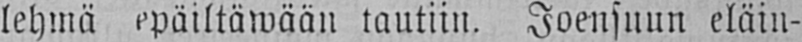lehmä epäiltäwään tautiin. Joensuun eläin-
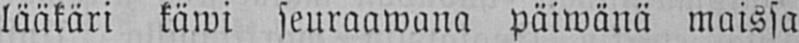lääkäri käwi seuraawana päiwänä maissa
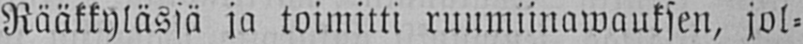Rääkkylässä ja toimitti ruumiinawauksen, jol-
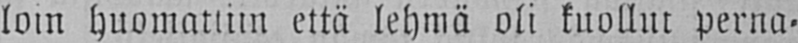loin huomattiin että lehmä oli kuollut perna-
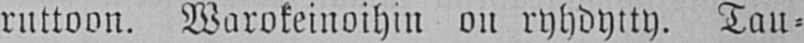ruttoon. Warokeinoihin on ryhdytty. Tau-
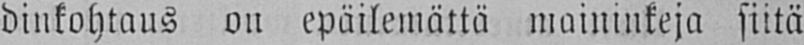dinkohtaus on epäilemättä maininkeja siitä
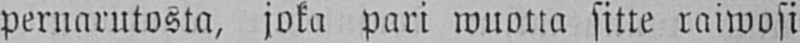pernarutosta, joka pari wuotta sitte raiwosi
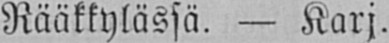Rääkkylässä. — Karj.
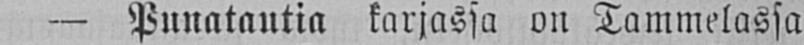— Punatautia karjassa on Tammelassa
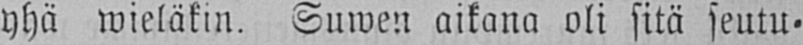yhä wieläkin. Suwen aikana oli sitä seutu-
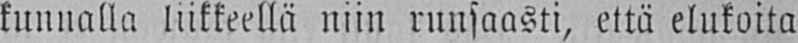kunnalla liikkeellä niin runsaasti, että elukoita
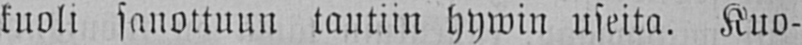kuoli sanottuun tautiin hywin useita. Kuo-
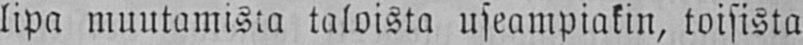lipa muutamista taloista useampiakin, toisista
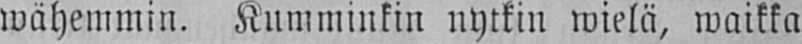wähemmin. Kumminkin nytkin wielä, waikka
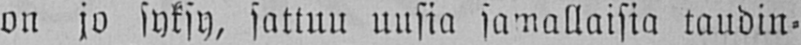on jo syksy, sattuu uusia samallaisia taudin-
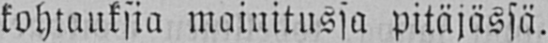kohtauksia mainitussa pitäjässä.
